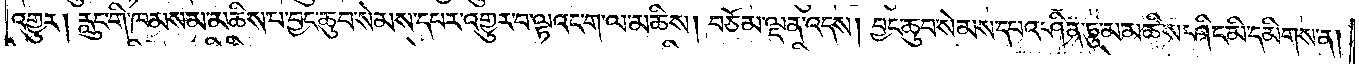འགྱུར། རླུང་གི་ཁམས་མ་མཆིས་པ་བྱང་ཆུབ་སེམས་དཔར་འགྱུར་བ་ལྟའང་ག་ལ་མཆིས། བཅོམ་ལྡན་འདས། བྱང་ཆུབ་སེམས་དཔའ་ཤིན་ཏུ་མ་མཆིས་ཤིང་མི་དམིགས་ན།
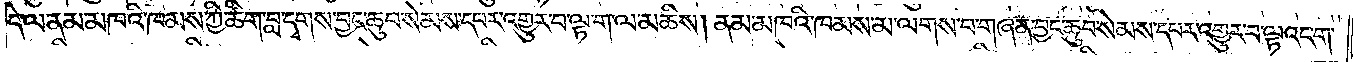དེ་ལ་ནམ་མཁའི་ཁམས་ཀྱི་ཚིག་བླ་དྭགས་བྱང་ཆུབ་སེམས་དཔར་འགྱུར་བ་ལྟ་ག་ལ་མཆིས། ནམ་མཁའི་ཁམས་མ་ལགས་པ་གཞན་བྱང་ཆུབ་སེམས་དཔར་འགྱུར་བ་ལྟའང་ག་
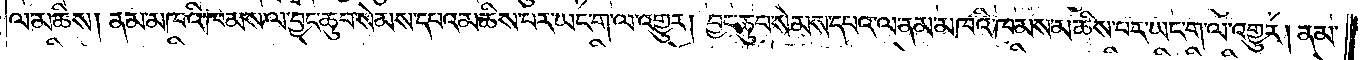ལ་མཆིས། ནམ་མཁའི་ཁམས་ལ་བྱང་ཆུབ་སེམས་དཔའ་མཆིས་པར་ཡང་ག་ལ་འགྱུར། བྱང་ཆུབ་སེམས་དཔའ་ལ་ནམ་མཁའི་ཁམས་མཆིས་པར་ཡང་ག་ལ་འགྱུར། ནམ་
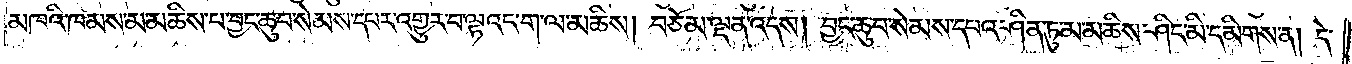མཁའི་ཁམས་མ་མཆིས་པ་བྱང་ཆུབ་སེམས་དཔར་འགྱུར་བ་ལྟའང་ག་ལ་མཆིས། བཅོམ་ལྡན་འདས། བྱང་ཆུབ་སེམས་དཔའ་ཤིན་ཏུ་མ་མཆིས་ཤིང་མི་དམིགས་ན། དེ་
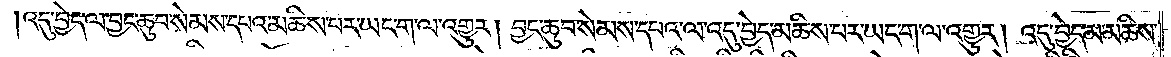འདུ་བྱེད་ལ་བྱང་ཆུབ་སེམས་དཔའ་མཆིས་པར་ཡང་ག་ལ་འགྱུར། བྱང་ཆུབ་སེམས་དཔའ་ལ་འདུ་བྱེད་མཆིས་པར་ཡང་ག་ལ་འགྱུར། འདུ་བྱེད་མ་མཆིས་
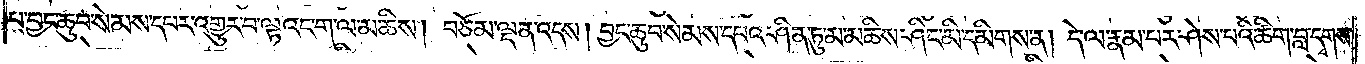པ་བྱང་ཆུབ་སེམས་དཔར་འགྱུར་བ་ལྟའང་ག་ལ་མཆིས། བཅོམ་ལྡན་འདས། བྱང་ཆུབ་སེམས་དཔའ་ཤིན་ཏུ་མ་མཆིས་ཤིང་མི་དམིགས་ན། དེ་ལ་རྣམ་པར་ཤེས་པའི་ཚིག་བླ་དྭགས་
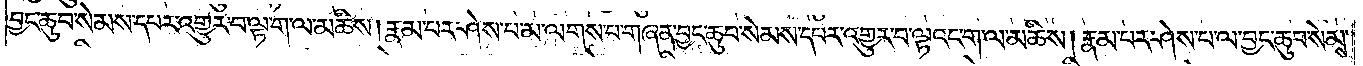བྱང་ཆུབ་སེམས་དཔར་འགྱུར་བ་ལྟ་ག་ལ་མཆིས། རྣམ་པར་ཤེས་པ་མ་ལགས་པ་གཞན་བྱང་ཆུབ་སེམས་དཔར་འགྱུར་བ་ལྟའང་ག་ལ་མཆིས། རྣམ་པར་ཤེས་པ་ལ་བྱང་ཆུབ་སེམས་
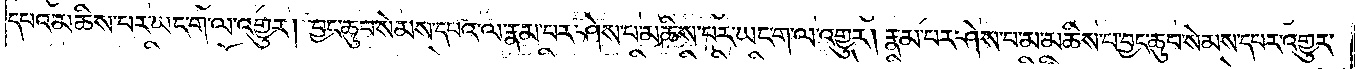དཔའ་མཆིས་པར་ཡང་ག་ལ་འགྱུར། བྱང་ཆུབ་སེམས་དཔའ་ལ་རྣམ་པར་ཤེས་པ་མཆིས་པར་ཡང་ག་ལ་འགྱུར། རྣམ་པར་ཤེས་པ་མ་མཆིས་པ་བྱང་ཆུབ་སེམས་དཔར་འགྱུར་
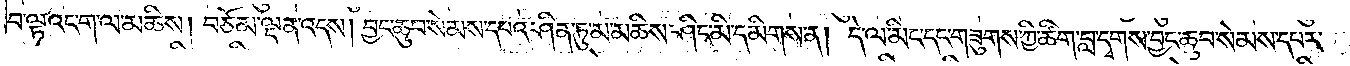བ་ལྟའང་ག་ལ་མཆིས། བཅོམ་ལྡན་འདས། བྱང་ཆུབ་སེམས་དཔའ་ཤིན་ཏུ་མ་མཆིས་ཤིང་མི་དམིགས་ན། དེ་ལ་མིང་དང་གཟུགས་ཀྱི་ཚིག་བླ་དྭགས་བྱང་ཆུབ་སེམས་དཔར་
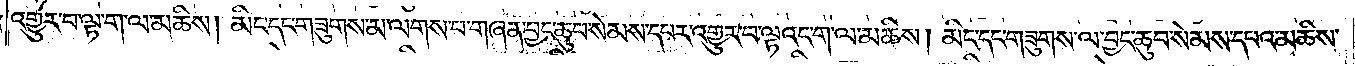འགྱུར་བ་ལྟ་ག་ལ་མཆིས། མིང་དང་གཟུགས་མ་ལགས་པ་གཞན་བྱང་ཆུབ་སེམས་དཔར་འགྱུར་བ་ལྟའང་ག་ལ་མཆིས། མིང་དང་གཟུགས་ལ་བྱང་ཆུབ་སེམས་དཔའ་མཆིས་
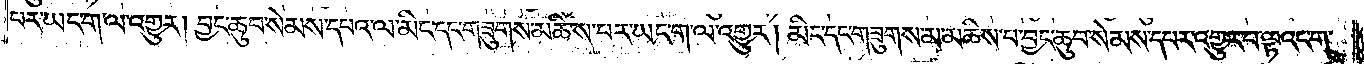པར་ཡང་ག་ལ་འགྱུར། བྱང་ཆུབ་སེམས་དཔའ་ལ་མིང་དང་གཟུགས་མཆིས་པར་ཡང་ག་ལ་འགྱུར། མིང་དང་གཟུགས་མ་མཆིས་པ་བྱང་ཆུབ་སེམས་དཔར་འགྱུར་བ་ལྟའང་ག་
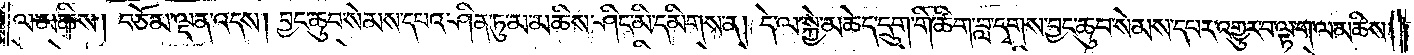ལ་མཆིས། བཅོམ་ལྡན་འདས། བྱང་ཆུབ་སེམས་དཔའ་ཤིན་ཏུ་མ་མཆིས་ཤིང་མི་དམིགས་ན། དེ་ལ་སྐྱེ་མཆེད་དྲུག་གི་ཚིག་བླ་དྭགས་བྱང་ཆུབ་སེམས་དཔར་འགྱུར་བ་ལྟ་ག་ལ་མཆིས།
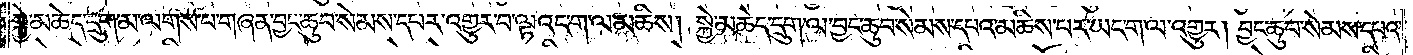སྐྱེ་མཆེད་དྲུག་མ་ལགས་པ་གཞན་བྱང་ཆུབ་སེམས་དཔར་འགྱུར་བ་ལྟའང་ག་ལ་མཆིས། སྐྱེ་མཆེད་དྲུག་ལ་བྱང་ཆུབ་སེམས་དཔའ་མཆིས་པར་ཡང་ག་ལ་འགྱུར། བྱང་ཆུབ་སེམས་དཔའ་
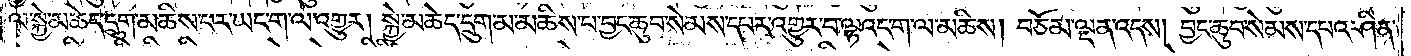ལ་སྐྱེ་མཆེད་དྲུག་མཆིས་པར་ཡང་ག་ལ་འགྱུར། སྐྱེ་མཆེད་དྲུག་མ་མཆིས་པ་བྱང་ཆུབ་སེམས་དཔར་འགྱུར་བ་ལྟའང་ག་ལ་མཆིས། བཅོམ་ལྡན་འདས། བྱང་ཆུབ་སེམས་དཔའ་ཤིན་
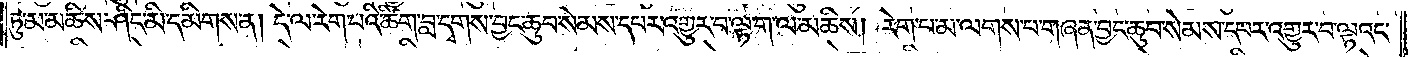ཏུ་མ་མཆིས་ཤིང་མི་དམིགས་ན། དེ་ལ་རེག་པའི་ཚིག་བླ་དྭགས་བྱང་ཆུབ་སེམས་དཔར་འགྱུར་བ་ལྟ་ག་ལ་མཆིས། རེག་པ་མ་ལགས་པ་གཞན་བྱང་ཆུབ་སེམས་དཔར་འགྱུར་བ་ལྟའང་
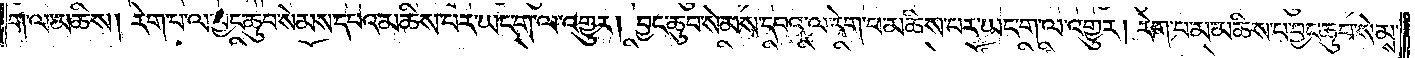ག་ལ་མཆིས། རེག་པ་ལ་བྱང་ཆུབ་སེམས་དཔའ་མཆིས་པར་ཡང་ག་ལ་འགྱུར། བྱང་ཆུབ་སེམས་དཔའ་ལ་རེག་པ་མཆིས་པར་ཡང་ག་ལ་འགྱུར། རེག་པ་མ་མཆིས་པ་བྱང་ཆུབ་སེམས་
